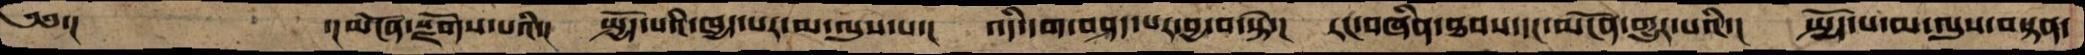༄༅་།      ་།མངོན་སྫོགས་པའི་།  སྤྱོད་པའི་ཁྱད་པར་མ་ལུས་པ་།  འདི་དག་བཤད་པར་བྱ་བ་སྟེ་།  རང་བཞིན་ཐབས་དང་མངོན་གྱུར་པའི་།  སྤྱོད་པ་མ་ལུས་བསྟན་
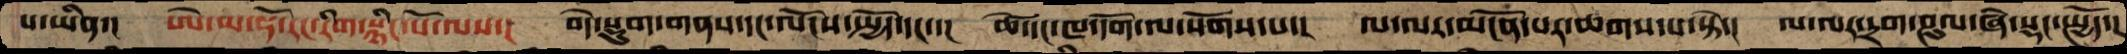པ་ཡིན་།  ཨེ་མ་ཧོ་རང་རིག་སྙིང་པོ་ལས་།  བདེ་སྡུག་གནས་དང་ལོངས་སྤྱོད་དང་་།  ཚེ་དང་ཁ་དོག་ལ་སོགས་པ་།  ལ་ལར་མངོན་པར་ཆགས་པ་སྟེ་།  ལ་ལར་དྲག་ཤུལ་ཞེ་སྡང་སྤྱོད་།
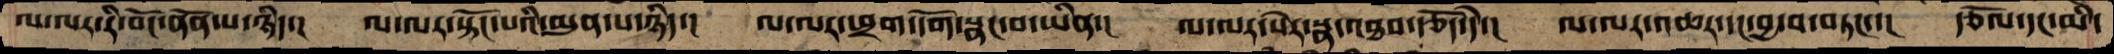ལ་ལར་རི་བོང་ནོན་པ་ཉིད་།  ལ་ལར་སྟོང་པའི་མུན་པ་ཉིད་།  ལ་ལར་ཕྲག་དོག་སྣང་བ་ཡིན་།  ལ་ལར་སེར་སྣ་འཐབ་རྩོད་དེ་།  ལ་ལར་འཆར་དང་བྱ་བ་བཏང་་།  རྩོལ་དང་མི་
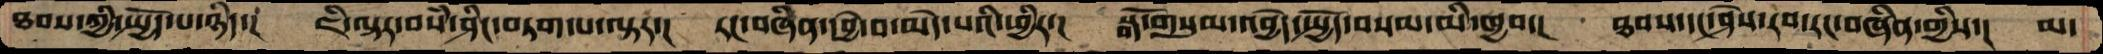ཐབས་ཀྱི་སྤྱོད་པ་ཉིད་།  ཇི་ལྟར་བསཾ་ཤིང་བཏག་པ་ལྟར་།  རང་བཞིན་དབྱེ་བ་མེད་པའི་ཕྱིར་།  སྒོ་གསུམ་འབྱེད་སྤྱོད་བསམ་མི་ཁྱབ་།  ཐབས་དང་ཤེས་རབ་རང་བཞིན་གྱིས་།  མ་
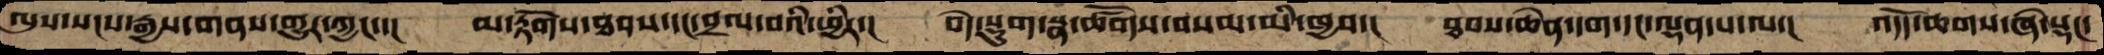ལུས་སངས་རྒྱས་གནས་གྱུར་ཀྱང་་།  མ་རྟོགས་ཐབས་དང་བྲལ་བའི་ཕྱིར་།  བདེ་སྡུག་སྣ་ཚོགས་བསམ་མི་ཁྱབ་།  ཐབས་ཆེན་དག་དང་ལྡན་པ་ལ་།  འདོད་ཆགས་ཞེ་སྡང་
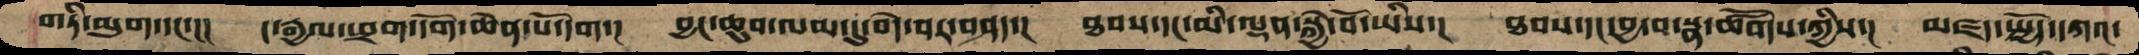གཏི་མུག་དང་།།།  ང་རྒྱལ་ཕྲག་དོག་ཆེན་པོ་དག་།  བྱང་ཆུབ་ལམ་དུ་བདེ་བར་བཤད་།  ཐབས་དང་མི་ལྡན་སྐྱེ་བོ་ཡིས་།  ཐབས་དང་བྱ་བ་སྣ་ཚོགས་ཀྱིས་།  མཛད་སྤྱོད་དཀའ་
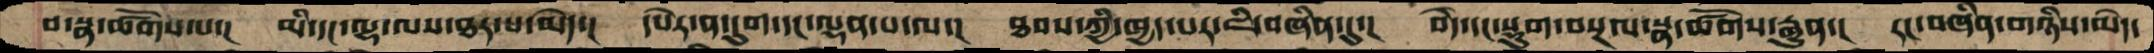བ་སྣ་ཚོགས་པ་།  མི་དང་ལྷ་ལས་ཐར་པ་མེད་།  དཔེར་ན་དུག་དང་ལྡན་པ་ལ་།  ཐབས་ཀྱི་ཁྱད་པར་ཇི་བཞིན་དུ་།  བདེ་དང་སྡུག་བསྔལ་སྣ་ཚོགས་རྒྱུན་།  རང་བཞིན་གཉིས་མེད་
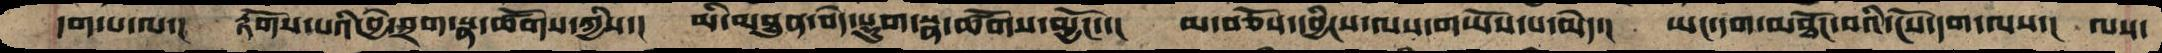དག་པ་ལ་།  རྟོགས་པའི་བྱེ་བྲག་སྣ་ཚོགས་ཀྱིས་།  མི་མཐུན་བདེ་སྡུག་སྣ་ཚོགས་མྱོང་་།  མ་བཅོས་དབྱིངས་ལས་གཡོས་པ་མེད་།  ཡང་དག་མཐོང་བའི་ངོས་དག་ལས་།  ལས་
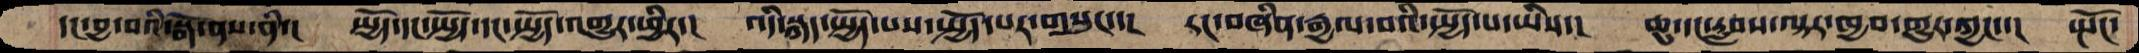དང་བྱ་བའི་སྒོ་ནས་ནི་། སྤྱོད་དང་སྤྱོད་དང་སྤྱོད་འགྱུར་ཕྱིར་།  འདི་སྐད་སྤྱོད་པས་སྤྱོད་པར་གསུང་་། རང་བཞིན་རྒྱལ་བའི་སྤྱོད་པ་ཡིས་། ཆུ་དང་རླབས་ལྟར་ཁྱབ་གྱུར་ཀྱང་་། སྤོང་
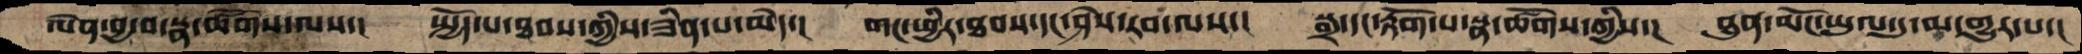དང་བྱ་བ་སྣ་ཚོགས་ལས་།  སྤྱོད་པ་ཐབས་ཀྱིས་ཟིན་པ་མེད་།  གང་ཕྱིར་ཐབས་དང་ཤེས་རབ་ལས་།  སྒྲ་དང་རྟོག་པ་སྣ་ཚོགས་ཀྱིས་།  ཐུན་མོང་ཡུལ་དུ་མ་གྱུར་པ་།
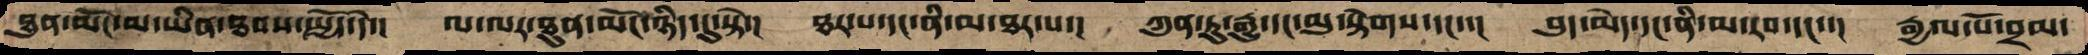ཐུན་མོང་མ་ཡིན་ཐབས་སྤྱོད་དོ་།  ལ་ལར་ཐུན་མོང་ཉིད་དུ་སྟེ་།  ཐར་པ་དང་ནི་མ་ཐར་པ་།  ཀུན་ཏུ་རྒྱུ་དང་མུ་སྟེགས་དང་་།  བུད་མེད་དང་ནི་མ་རབ་དང་་།  རྒྱལ་པོ་བྲམ་
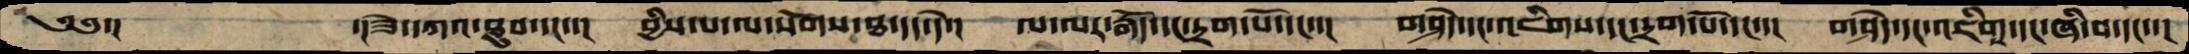༄༅་།     ་།ཟེ་དཀའ་ཐུབ་དང་་།  བྱིས་པ་ལ་སོགས་ཐ་དད་དེ་། ལ་ལར་རྒོད་དང་དྲག་པོ་དང་་། གཤེད་དང་འཇིགས་དང་དྲག་པོ་དང་་། གཤེད་དང་འཇིགས་དང་ཞི་བ་དང་་།
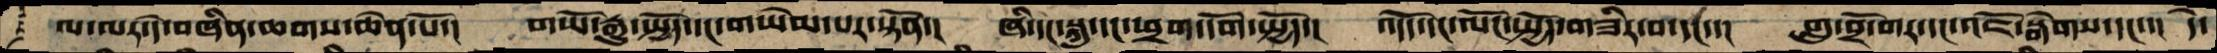ལ་ལར་དེ་བཞིན་ཆགས་ཆེན་པོ་། གཡོ་རྒྱུ་སྤྱོད་དང་གཡེམ་པར་སྟོན་། ཞི་དང་སྐུ་དང་ཕྲག་དོག་སྤྱོད་། འདོད་དང་ལོང་སྤྱོད་གཟིར་བ་དང་་། གླུ་བྲོ་གར་དང་འཇོ་སྒེགས་དང་་། དེ་
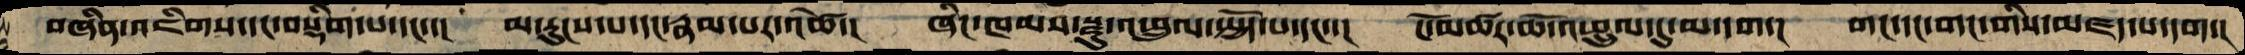བཞིན་འཇིགས་དང་བསྡིགས་པ་དང་་།  མ་རུངས་པ་དང་རྣམ་པར་འཚེ་།  ཞིང་ཁམས་སྫུ་འཕྲུལ་སྤྱོད་པ་དང་་།  ངོ་མཚར་ཆོ་འཕྲུལ་དུ་མ་དག་།  གང་དང་གང་གིས་མཛད་པ་དག་།
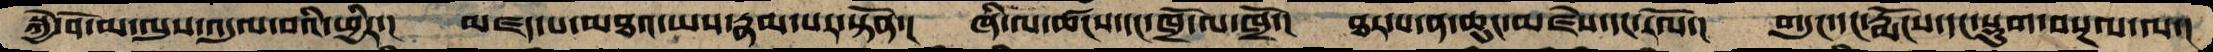སྐྱེ་བོ་མ་ལུས་འདུལ་བའི་ཕྱིར་།  མཛད་པ་མཐའ་ཡས་རྣམ་པར་སྟོན་།  ཞི་ལ་ཚངས་དང་ཁྲོ་ལ་ཁྲོ་།  ཐར་པ་ན་ཆུང་མཛེས་དང་རོལ་།  གདུང་དང་རྨོངས་དང་སྡུག་བསྔལ་ལ་།
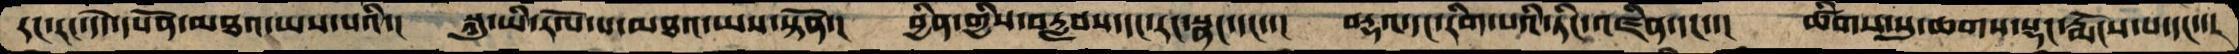རང་རང་དེད་དཔོན་མཐའ་ཡས་པའི་།  སྐུ་ཡི་རོལ་པ་མཐའ་ཡས་སྟོན་།  བྱིན་གྱིས་བརླབས་དང་རང་སྣང་དང་་།  བརྡའ་དང་རིག་པའི་ཏིང་འཛིན་དང་་།  ཚིགས་སུ་ཆགས་སྡང་རྨོངས་པ་དང་་།
